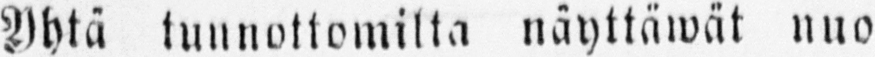Yhtä tuunottomilta näyttäwät nuo
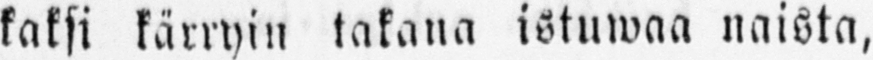kaksi kärryin takana istuwaa naista,
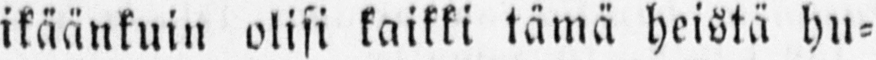ikäänkuin olisi kaikki tämä heistä hu-
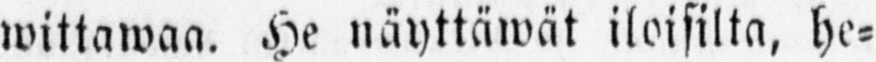wittawaa. He näyttäwät iloisilta, he-
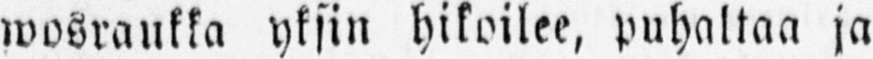wosraukka yksin hikoilee, puhaltaa ja
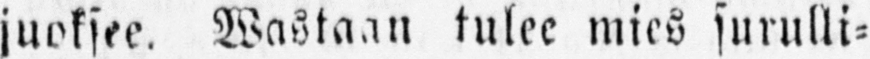juoksee. Wastaan tulee mies surulli-
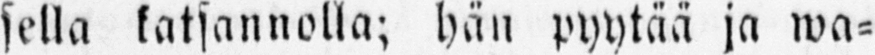sella katsannolla; hän pyytää ja wa-
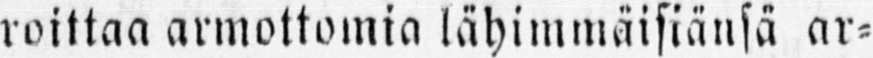roittaa armottomia lähimmäisiänsä ar-
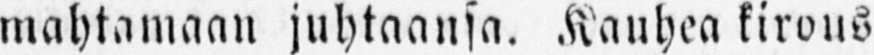mahtamaan juhtaansa. Kauhea kirous
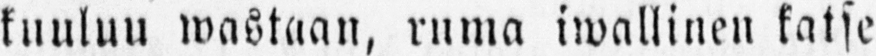kuuluu wastaan, ruma iwallinen katse
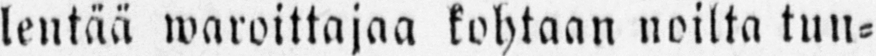lentää waroittajaa kohtaan noilta tun-
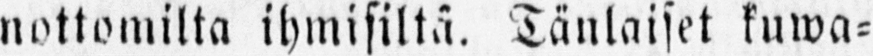nottomilta ihmisiltä. Tänlaiset kuwa-
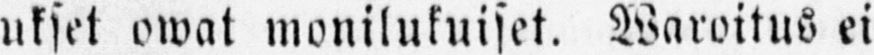ukset owat monilukuiset. Waroitus ei
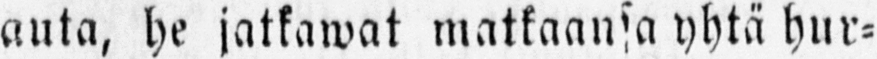auta, he jatkawat matkaansa yhtä hur-
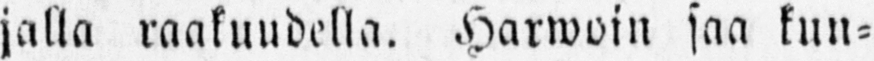jalla raakuudella. Harwoin saa kun-
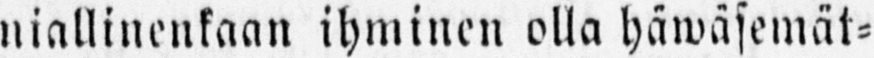niallinenkaan ihminen olla häwäsemät-
